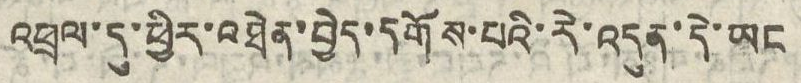འཕྲལ་དུ་ཕྱིར་འཐེན་བྱེད་དགོས་པའི་རེ་འདུན་དེ་ཡང
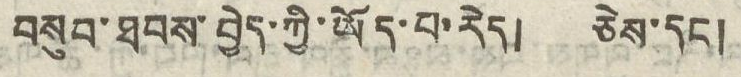བསུབ་ཐབས་བྱེད་ཀྱི་ཡོད་པ་རེད། ཅེས་དང།
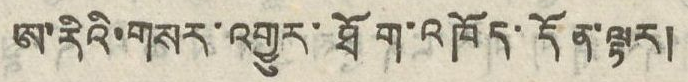ཨ་རིའི་གསར་འགྱུར་ཐོག་འཁོད་དོན་ལྟར།
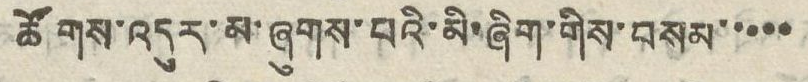ཚོགས་འདུར་མ་ཞུགས་པའི་མི་ཞིག་གིས་བསམ་་་་་
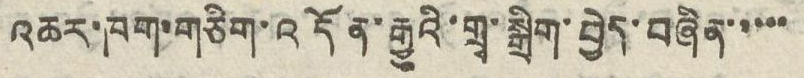འཆར་ཁག་གཅིག་འདོན་རྒྱུའི་གྲྭ་སྒྲིག་བྱེད་བཞིན་་་་་
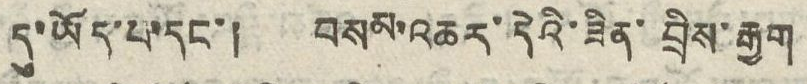དུ་ཡོད་པ་དང་། བསམ་འཆར་དེའི་ཟིན་བྲིས་རྒྱག
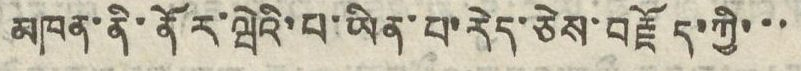མཁན་ནི་ནོར་ཝེའི་པ་ཡིན་པ་རེད་ཅེས་བརྗོད་ཀྱི་་་
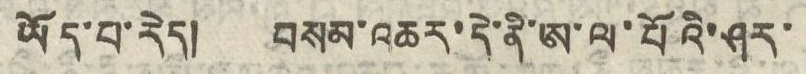ཡོད་པ་རེད། བསམ་འཆར་དེ་ནི་ཨ་ལ་པོའི་ཤར་
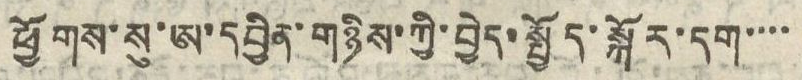ཕྱོགས་སུ་ཨ་དབྱིན་གཉིས་ཀྱི་བྱེད་སྤྱོད་སྐོར་དག་་་་
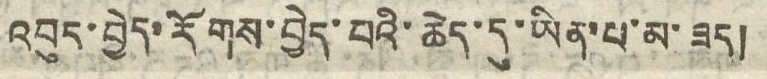འབུད་བྱེད་རོགས་བྱེད་པའི་ཆེད་དུ་ཡིན་པ་མ་ཟད།
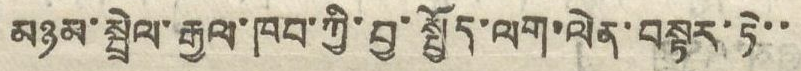མཉམ་སྦྲེལ་རྒྱལ་ཁབ་ཀྱི་བྱ་སྤྱོད་ལག་ལེན་བསྟར་ཏེ་་
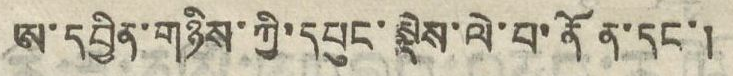ཨ་དབྱིན་གཉིས་ཀྱི་དཔུང་སྡེས་ལེ་པ་ནོན་དང་།
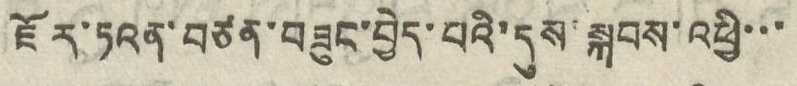ཇོར་ཏའན་བཙན་བཟུང་བྱེད་པའི་དུས་སྐབས་འཕྱི་་་
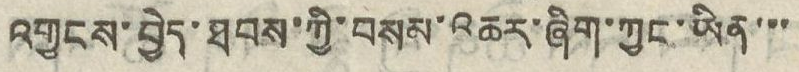འགྱངས་བྱེད་ཐབས་ཀྱི་བསམ་འཆར་ཞིག་ཀྱང་ཡིན་་་
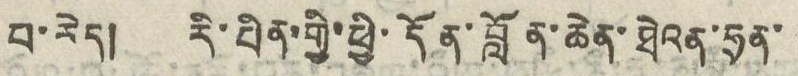པ་རེད། རི་པིན་གྱི་ཕྱི་དོན་བློན་ཆེན་ཐེའན་ཧྲན་
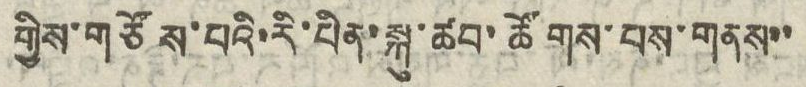གྱིས་གཙོས་པའི་རི་པིན་སྐུ་ཚབ་ཚོགས་པས་གནས་་
